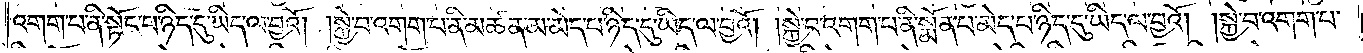འགག་པ་ནི་སྟོང་པ་ཉིད་དུ་ཡིད་ལ་བྱའོ། །སྐྱེ་བ་འགག་པ་ནི་མཚན་མ་མེད་པ་ཉིད་དུ་ཡིད་ལ་བྱའོ། །སྐྱེ་བ་འགག་པ་ནི་སྨོན་པ་མེད་པ་ཉིད་དུ་ཡིད་ལ་བྱའོ། །སྐྱེ་བ་འགག་པ་
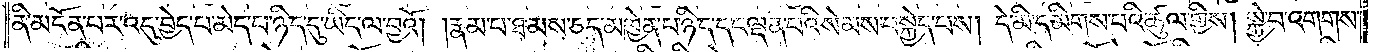ནི་མངོན་པར་འདུ་བྱེད་པ་ཉིད་དུ་ཡིད་ལ་བྱའོ། རྣམ་པ་ཐམས་ཅད་མཁྱེན་པ་ཉིད་དང་ལྡན་པའི་སེམས་བསྐྱེད་པས། དེ་མི་དམིགས་པའི་ཚུལ་གྱིས། །སྐྱེ་བ་འགགས་
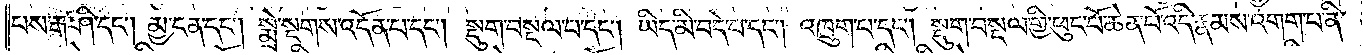པས་རྒ་ཤི་དང༌། མྱ་ངན་དང༌། སྨྲེ་སྔགས་འདོན་པ་དང༌། སྡུག་བསྔལ་པ་དང༌། །ཡིད་མི་བདེ་བ་དང༌། འཁྲུག་པ་དང༌། སྡུག་བསྔལ་གྱི་ཕུང་པོ་ཆེན་པོ་འདི་རྣམས་འགག་པ་ནི་
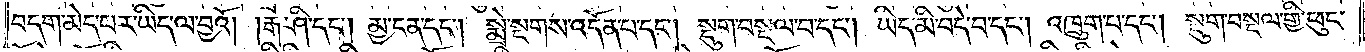བདག་མེད་པར་ཡིད་ལ་བྱའོ། །རྒ་ཤི་དང༌། མྱ་ངན་དང༌། སྨྲེ་སྔགས་འདོན་པ་དང༌། སྡུག་བསྔལ་བ་དང༌། །ཡིད་མི་བདེ་བ་དང༌། འཁྲུག་པ་དང༌། སྡུག་བསྔལ་གྱི་ཕུང་
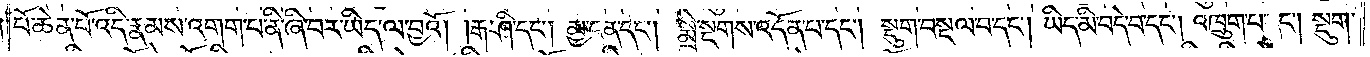པོ་ཆེན་པོ་འདི་རྣམས་འགག་པ་ནི་ཞི་བར་ཡིད་ལ་བྱའོ། །རྒ་ཤི་དང༌། མྱ་ངན་དང༌། སྨྲེ་སྔགས་འདོན་པ་དང༌། སྡུག་བསྔལ་བ་དང༌། ཡིད་མི་བདེ་བ་དང༌། འཁྲུག་པ་དང༌། སྡུག་
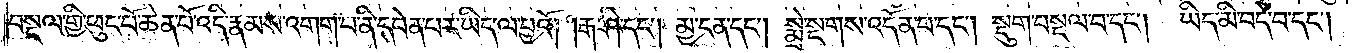བསྔལ་གྱི་ཕུང་པོ་ཆེན་པོ་འདི་རྣམས་འགག་པ་ནི་དབེན་པར་ཡིད་ལ་བྱའོ། །རྒ་ཤི་དང༌། མྱ་ངན་དང༌། སྨྲེ་སྔགས་འདོན་པ་དང༌། སྡུག་བསྔལ་བ་དང༌། །ཡིད་མི་བདེ་བ་དང༌།
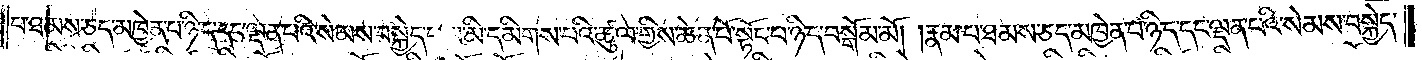པ་ཐམས་ཅད་མཁྱེན་པ་ཉིད་དང་ལྡན་པའི་སེམས་བསྐྱེད་པས་མི་དམིགས་པའི་ཚུལ་གྱིས་ཆེན་པོ་སྟོང་པ་ཉིད་བསྒོམ་མོ། །རྣམ་པ་ཐམས་ཅད་མཁྱེན་པ་ཉིད་དང་ལྡན་པའི་སེམས་བསྐྱེད་
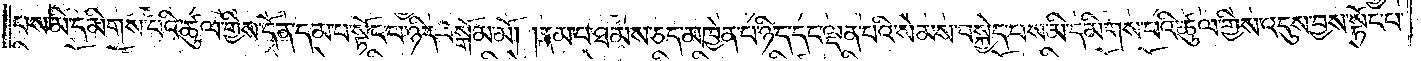པས་མི་དམིགས་པའི་ཚུལ་གྱིས་དོན་དམ་པ་སྟོང་པ་ཉིད་བསྒོམ་མོ། །རྣམ་པ་ཐམས་ཅད་མཁྱེན་པ་ཉིད་དང་ལྡན་པའི་སེམས་བསྐྱེད་པས་མི་དམིགས་པའི་ཚུལ་གྱིས་འདུས་བྱས་སྟོང་པ་
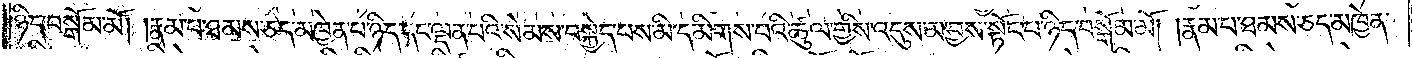ཉིད་བསྒོམ་མོ། །རྣམ་པ་ཐམས་ཅད་མཁྱེན་པ་ཉིད་དང་ལྡན་པའི་སེམས་བསྐྱེད་པས་མི་དམིགས་པའི་ཚུལ་གྱིས་འདུས་མ་བྱས་སྟོང་པ་ཉིད་བསྒོམ་མོ། །རྣམ་པ་ཐམས་ཅད་མཁྱེན་
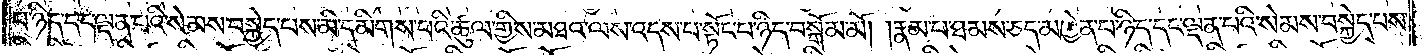པ་ཉིད་དང་ལྡན་པའི་སེམས་བསྐྱེད་པས་མི་དམིགས་པའི་ཚུལ་གྱིས་མཐའ་ལས་འདས་པ་སྟོང་པ་ཉིད་བསྒོམ་མོ། །རྣམ་པ་ཐམས་ཅད་མཁྱེན་པ་ཉིད་དང་ལྡན་པའི་སེམས་བསྐྱེད་པས་
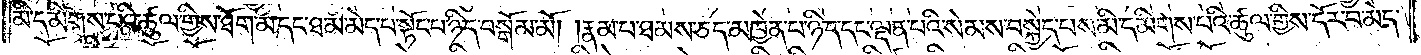མི་དམིགས་པའི་ཚུལ་གྱིས་ཐོག་མ་དང་ཐ་མ་མེད་པ་སྟོང་པ་ཉིད་བསྒོམ་མོ། །རྣམ་པ་ཐམས་ཅད་མཁྱེན་པ་ཉིད་དང་ལྡན་པའི་སེམས་བསྐྱེད་པས་མི་དམིགས་པའི་ཚུལ་གྱིས་དོར་བ་མེད་
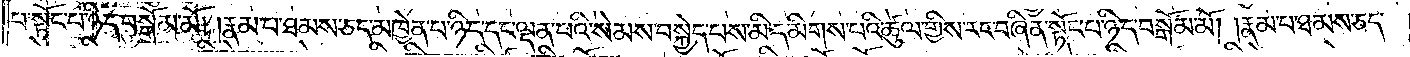པ་སྟོང་པ་ཉིད་བསྒོམ་མོ། །རྣམ་པ་ཐམས་ཅད་མཁྱེན་པ་ཉིད་དང་ལྡན་པའི་སེམས་བསྐྱེད་པས་མི་དམིགས་པའི་ཚུལ་གྱིས་རང་བཞིན་སྟོང་པ་ཉིད་བསྒོམ་མོ། །རྣམ་པ་ཐམས་ཅད་
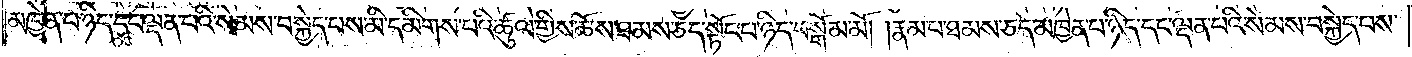མཁྱེན་པ་ཉིད་དང་ལྡན་པའི་སེམས་བསྐྱེད་པས་མི་དམིགས་པའི་ཚུལ་གྱིས་ཆོས་ཐམས་ཅད་སྟོང་པ་ཉིད་བསྒོམ་མོ། །རྣམ་པ་ཐམས་ཅད་མཁྱེན་པ་ཉིད་དང་ལྡན་པའི་སེམས་བསྐྱེད་པས་
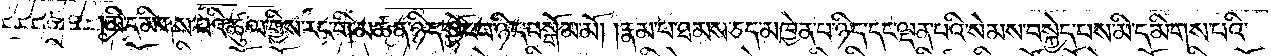མི་དམིགས་པའི་ཚུལ་གྱིས་རང་གི་མཚན་ཉིད་སྟོང་པ་ཉིད་བསྒོམ་མོ། །རྣམ་པ་ཐམས་ཅད་མཁྱེན་པ་ཉིད་དང་ལྡན་པའི་སེམས་བསྐྱེད་པས་མི་དམིགས་པའི་
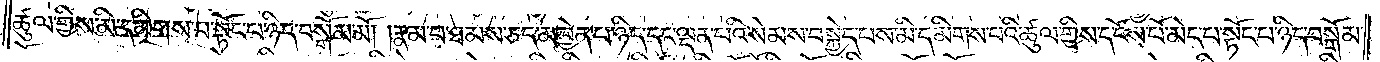ཚུལ་གྱིས་མི་དམིགས་པ་སྟོང་པ་ཉིད་བསྒོམ་མོ། །རྣམ་པ་ཐམས་ཅད་མཁྱེན་པ་ཉིད་དང་ལྡན་པའི་སེམས་བསྐྱེད་པས་མི་དམིགས་པའི་ཚུལ་གྱིས་དངོས་པོ་མེད་པ་སྟོང་པ་ཉིད་བསྒོམ་
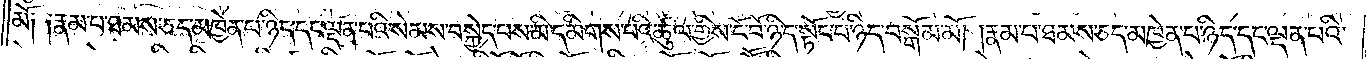མོ༑ ༑རྣམ་པ་ཐམས་ཅད་མཁྱེན་པ་ཉིད་དང་ལྡན་པའི་སེམས་བསྐྱེད་པས་མི་དམིགས་པའི་ཚུལ་གྱིས་ངོ་བོ་ཉིད་སྟོང་པ་ཉིད་བསྒོམ་མོ། །རྣམ་པ་ཐམས་ཅད་མཁྱེན་པ་ཉིད་དང་ལྡན་པའི་
